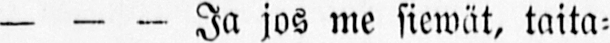— — — Ja jos me siewät, taita-
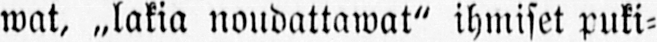wat, „lakia noudattawat" ihmiset puki-
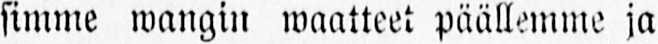simme wangin waatteet päällemme ja
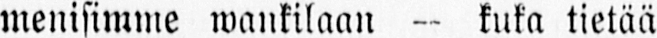menisimme wankilaan — kuka tietää
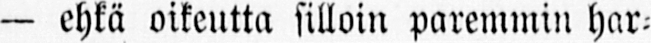— ehkä oikeutta silloin paremmin har-
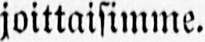joittaisimme.
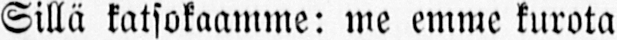Sillä katsokaamme: me emme kurota
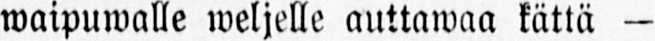waipuwalle weljelle auttawaa kättä —
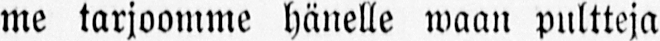me tarjoomme hänelle waan pultteja
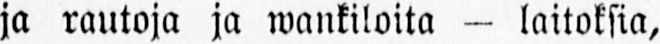ja rautoja ja wankiloita — laitoksia,
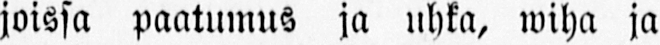joissa paatumus ja uhka, wiha ja
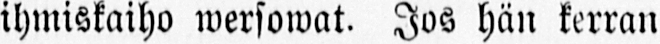ihmiskaiho wersowat. Jos hän kerran
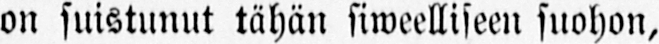on suistunut tähän siweelliseen suohon,
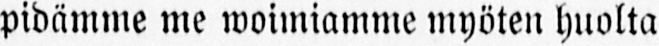pidämme me woimiamme myöten huolta
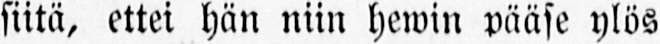siitä, ettei hän niin hewin pääse ylös
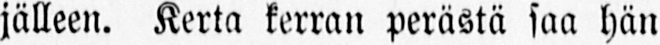jälleen. Kerta kerran perästä saa hän
